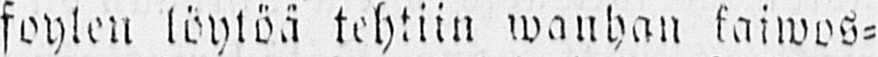foylen löytöä tehtiin wanhan kaiwos-
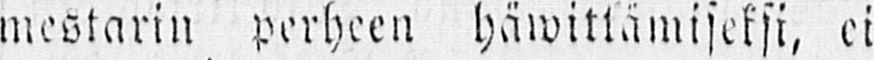mestarin perheen häwittämiseksi, ei
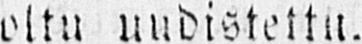oltu uudistettu.
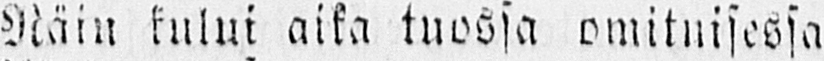Näin kului aika tuossa omituisessa
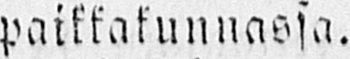paikkakunnassa.
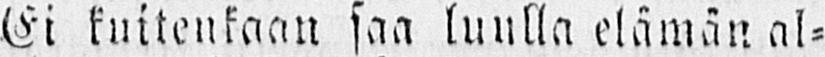Ei kuitenkaan saa luulla elämän al-
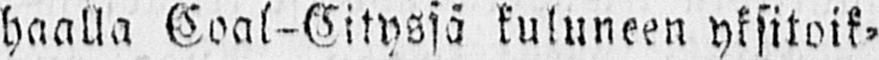haalla Coal-Cityssä kuluneen yksitoik-
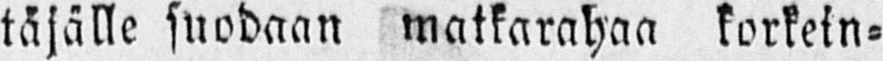täjälle suodaan matkarahaa korkein-
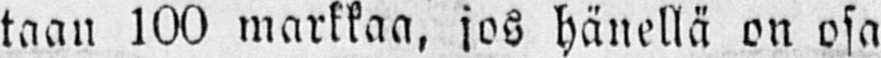taan 100 markkaa, jos hänellä on osa
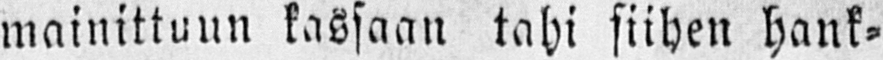mainittuun kassaan tahi siihen hank-
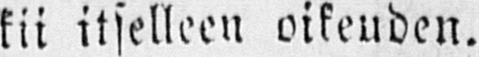kii itselleen oikeuden.
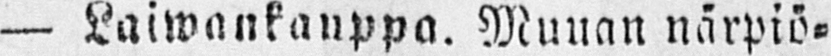— Laiwankanppa. Muuan närpiö-
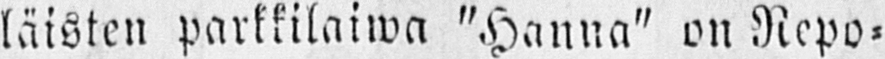läisten parkkilaiwa "Hanna" on Repo-
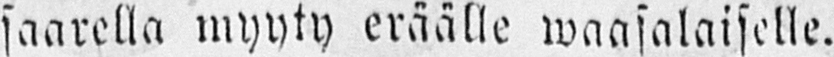saarella myyty eräälle waasalaiselle.
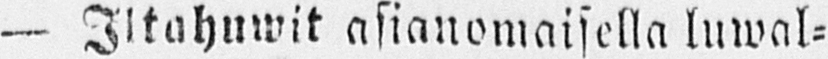— Iltahuwit asianomaisella luwal-
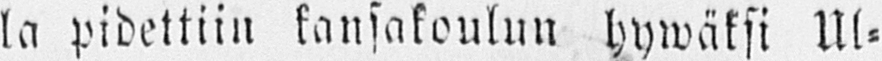la pidettiin kansakoulun hywäksi Ul-
